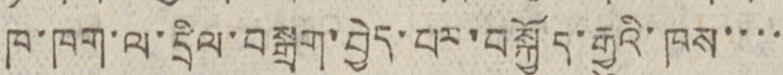ཁ་ཁག་ལ་དྲིལ་བསྒྲག་བྱེད་པར་བསྐྱོད་རྒྱུའི་ཁས་་་་
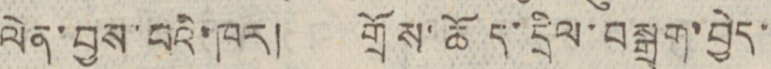ལེན་བྱས་པའི་ཁར། གྲོས་ཆོད་དྲིལ་བསྒྲག་བྱེད་
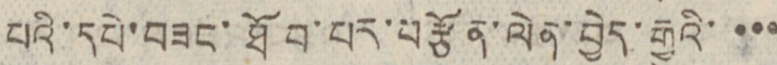པའི་དཔེ་བཟང་ཐོབ་པར་བརྩོན་ལེན་བྱེད་རྒྱུའི་་་་
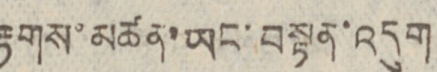རྟགས་མཚན་ཡང་བསྟན་འདུག
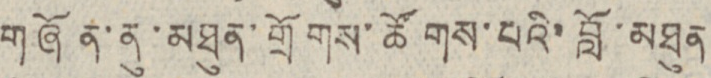གཞོན་ནུ་མཐུན་གྲོགས་ཚོགས་པའི་བློ་མཐུན
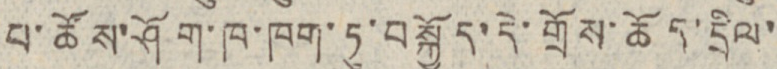པ་ཚོས་ཤོག་ཁ་ཁག་ཏུ་བསྐྱོད་དེ་གྲོས་ཆོད་དྲིལ་
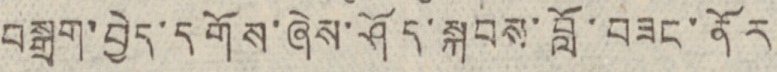བསྒྲག་བྱེད་དགོས་ཞེས་ཤོད་སྐབས་བློ་བཟང་ནོར
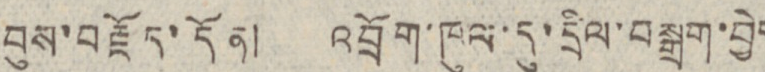བུས་བརྗོད་དོན། འབྲོག་ཁུལ་དུ་དྲིལ་བསྒྲག་བྱེད
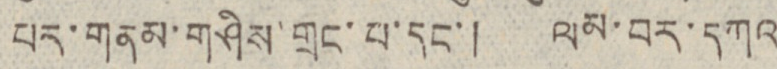པར་གནམ་གཤིས་གྲང་པ་དང་། ལམ་བར་དཀའ
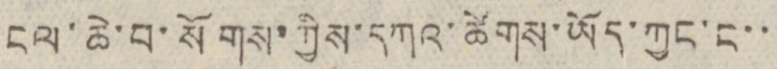ངལ་ཆེ་བ་སོགས་ཀྱིས་དཀའ་ཚེགས་ཡོད་ཀྱང་ང་་
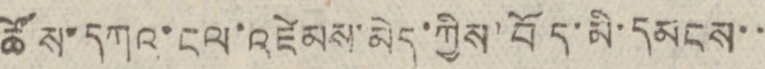ཚོས་དཀའ་ངལ་འཛེམས་མེད་ཀྱིས་བོད་མི་དམངས་་
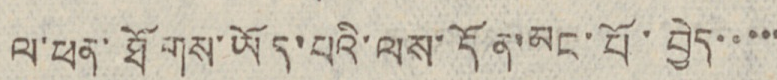ལ་ཕན་ཐོགས་ཡོད་པའི་ལས་དོན་མང་པོ་བྱེད་་་་་
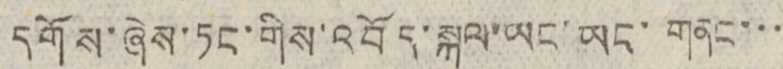དགོས་ཞེས་ཏང་གིས་འབོད་སྐུལ་ཡང་ཡང་གནང་་་
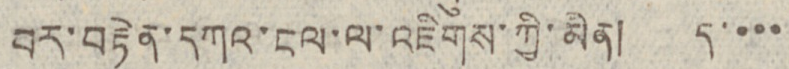བར་བརྟེན་དཀའ་ངལ་ལ་འཇིགས་ཀྱི་མིན། ད་་་་
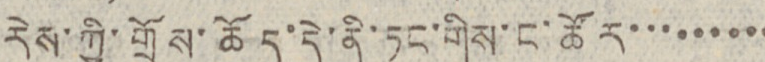རེས་ཀྱི་གྲོས་ཆོད་དེ་ནི་ཏང་གིས་ང་ཚོར་་་་་་་་་
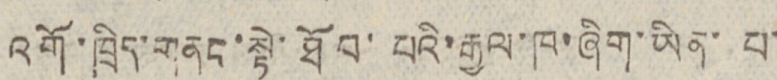འགོ་ཁྲིད་གནང་སྟེ་ཐོབ་པའི་རྒྱལ་ཁ་ཞིག་ཡིན་པ་
